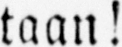taan!
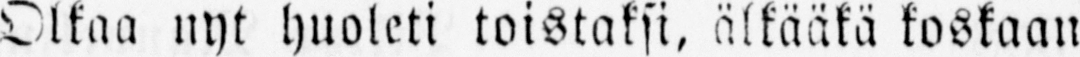Olkaa nyt huoleti toistaksi, älkääkä koskaan
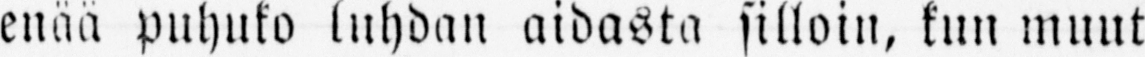enää puhuko luhdan aidasta silloin, kun muut
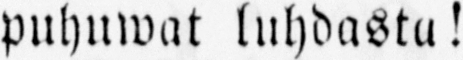puhuwat luhdasta!
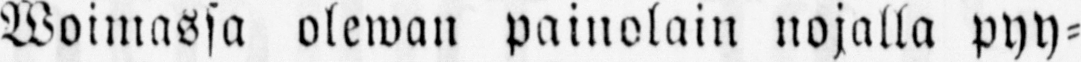Woimassa olewan painolain nojalla pyy-
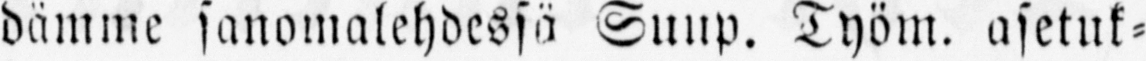dämme sanomalehdessä Suup. Työm. asetuk-
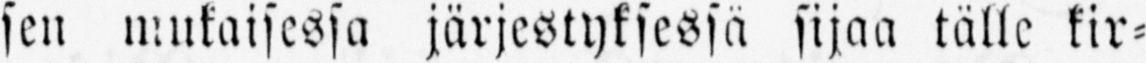sen mukaisessa järjestyksessä sijaa tälle kir-
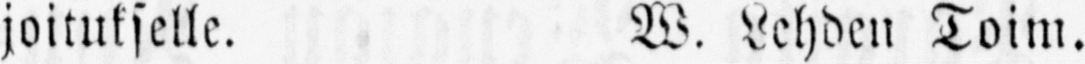joitukselle. W. Lehden Toim.
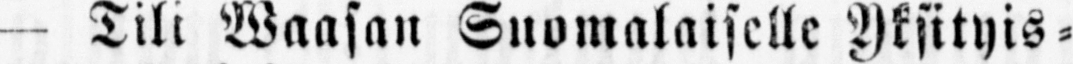— Tili Waasan Suomalaiselle Yksityis-
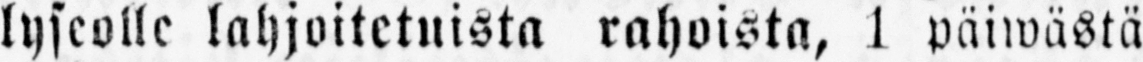lyseolle lahjoitetuista rahoista, 1 päiwästä
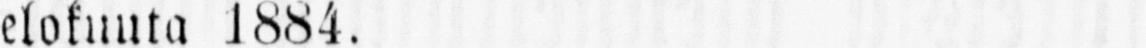elokuuta 1884.
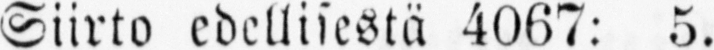Siirto edellisestä 4067: 5.
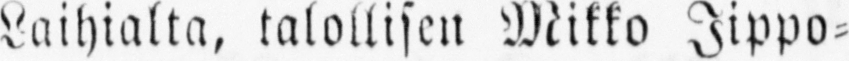Laihialta, talollisen Mikko Jippo-
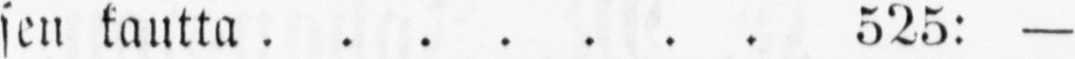sen kautta . . . . . . 525: —
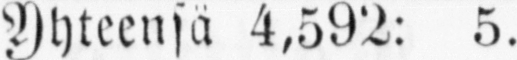Yhteensä 4,592: 5.
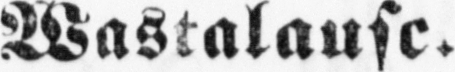Wastalause.
